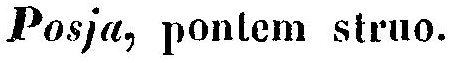Posja, pontem struo.
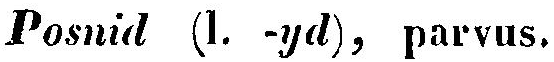Posnid (l. -yd), parvus.
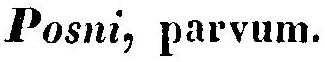Posni, parvum.
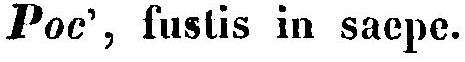Poc', fustis in saepe.
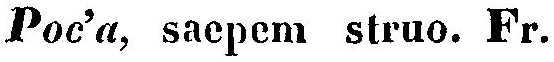Poc'a, saepem struo. Fr.
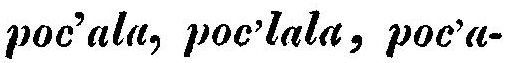poc'ala, poc'lala, poc'a-
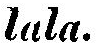lala.
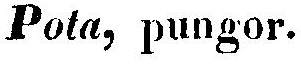Pota, pungor.
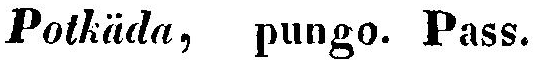Potkäda, pungo. Pass.
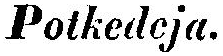Potkedeja.
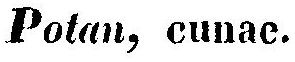Potan, cunae.
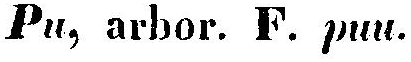Pu, arbor. F. puu.
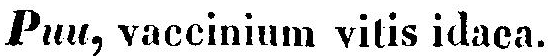Puu, vaccinium vitis idaca.
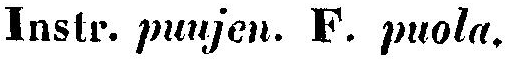Instr. puujen. F. puola.
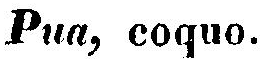Pua, coquo.
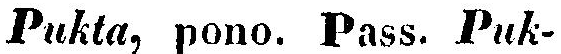Pukta, pono. Pass. Puk-
